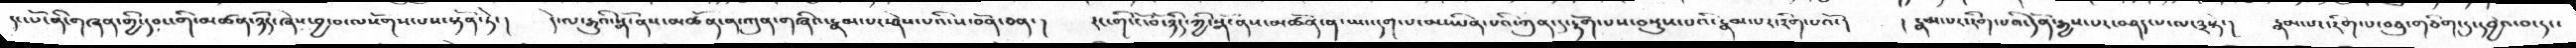དང་པོ་ནི་གཞན་གྱི་དབང་གི་མཚན་ཉིད་ཞེས་བྱ་བ་ལསོགས་པས་སྟོན་ཏེ་།     དེ་ལ་རྒྱུའི་སྒོ་ནས་མཚོན་ན་ཀུན་གཞིའ་རྣམ་པར་ཤེས་པའི་ས་བོན་ཅན་།      རང་གི་ངོ་བོ་ཉིད་ཀྱི་སྒོ་ནས་མཚོན་ན་ཡང་དག་པ་མ་ཡིན་པའི་ཀུན་དུ་རྟོག་པས་བསྡུས་པའི་རྣམ་པར་རིག་པའོ་།     ། རྣམ་པར་རིག་པའི་དོན་རྒྱས་པར་བཤད་པ་ལ་༣སྟེ་།     རྣམ་པར་རིག་པ་བཅུ་གཅིག་དུ་དབྱེའ་བ་དང་
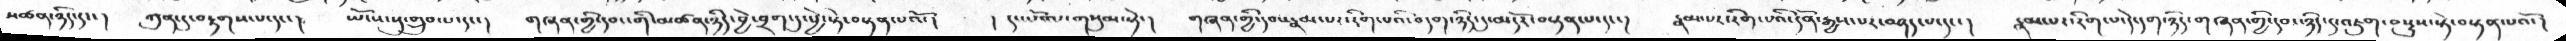མཚན་ཉིད་དང་།  ཀུན་དུ་བརྟགས་པ་དང་།  ཡོངས་སུ་གྲུབ་པ་དང་།  གཞན་གྱི་དབང་གི་མཚན་ཉིད་བྱེ་བྲག་དུ་ཕྱེ་སྟེ་བསྟན་པ༷འོ་།   ། དང་པོ་ལ་གསུམ་སྟེ་།  གཞན་གྱི་དབང་རྣམ་པར་རིག་པའི་བདག་ཉིད་དུ་མདོར་བསྟན་པ་དང་།  རྣམ་པར་རིག་པའི་དོན་རྒྱས་པར་བཤད་པ་དང་།  རྣམ་པར་རིག་པ་དེ་དག་ཉིད་གཞན་གྱི་དབང་ཉིད་དུ་འཇུག་བསྡུས་སྟེ་བསྟན་པའོ་།
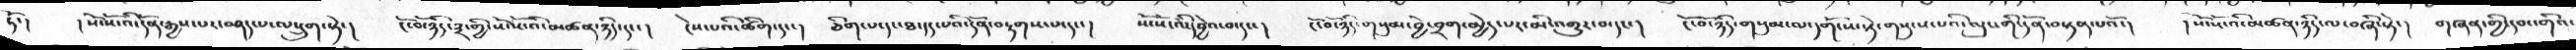ཏོ་།   ། སོ་སོ་འི་དོན་རྒྱས་པར་བཤད་པ་ལ་དྲུག་སྟེ་།  ངོ་བོ་ཉིད་༣་གྱི་སོ་སོ་འི་མཚན་ཉིད་དང་།  ངེས་པའི་ཚིག་དང་།  ཅིག་པ་དང་ཐ་དད་པའི་དོན་བརྟགས་པ་དང་།  སོ་སོ་འི་དབྱེའ་བ་དང་།  ངོ་བོ་ཉིད་གསུམ་བྱེ་བྲག་མྱེད་པར་མི་འགྱུར་བ་དང་།  ངོ་བོ་ཉིད་གསུམ་ལ་དགོངས་སྟེ་གསུངས་པའི་ལུང་གི་དོན་བསྟན་པའོ་།   ། སོ་སོ་འི་མཚན་ཉིད་ལ་བཞི་སྟེ་།  གཞན་གྱི་དབང་གིའ
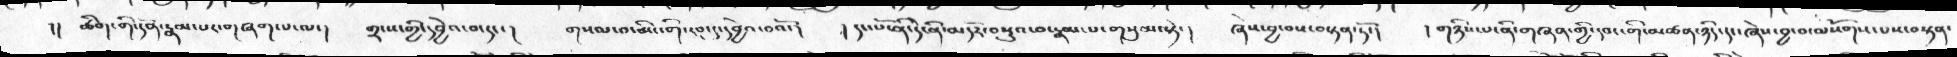།།  ཚིག་གི་དོན་རྣམ་པར་གཞག་པ་ལ་།  གྲངས་གྱི་དབྱེའ་བ་དང་།  གསལ་བ་མིང་གི་རབ་དུ་དབྱེའ་བའོ་།  ། དང་པོ་ནི་དེ་ནི་མདོར་བསྡུའ་བ་རྣམ་པ་གསུམ་སྟེ་།  ཞེས་བྱ་བས་བསྟན་ཏོ་།  །གཉིས་པ་ནི་གཞན་གྱི་དབང་གི་མཚན་ཉིད་དང་ཞེས་བྱ་བ་ལསོགས་པས་བསྟན་
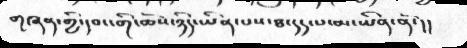གཞན་གྱི་དབང་གི་ཆོས་ཉིད་ཡིན་པས་ཐ་དད་པ་མ་ཡིན་ནོ་།།
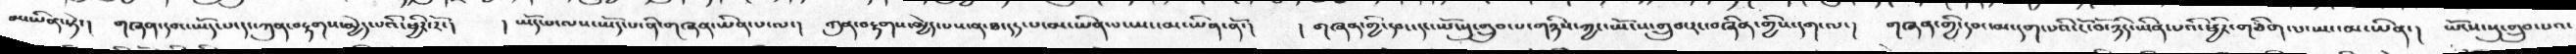མ་ཡིན་སྟེ་།  གཞན་དག་ཡོད་པ་དང་ཀུན་བརྟགས་མྱེད་པའི་ཕྱིར་རོ་།  ། ཡོད་པ་ལས་ཡོད་པ་ནི་གཞན་ཡིན་པ་ལ་།  ཀུན་བརྟགས་མྱེད་པས་ན་ཐ་དད་པ་མ་ཡིན་པ་ཡང་མ་ཡིན་ནོ་།  ། གཞན་གྱི་དབང་དབང་དང་ཡོངསུ་གྲུབ་པ་གཉིས་ཀྱང་ཡོངས་གྲུབ་རང་བཞིན་གྱིས་དག་ལ་།  གཞན་གྱི་དབང་མ་དག་པའི་ངོ་བོ་ཉིད་ཡིན་པའི་ཕྱིར་གཅིག་པ་ཡང་མ་ཡིན་།  ཡོངསུ་གྲུབ་པའ་
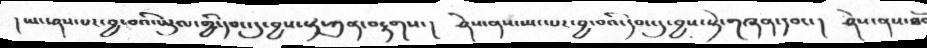། ཡང་ཤས་པར་བྱ་བའི་ཡུལ་གྱི་དབང་དུ་བྱས་སྟ་ཀུན་བརྟགས་།  ཤེས་ནས་སྤང་པར་བྱ་བའི་དབང་དུ་བྱས་སྟེ་གཞན་དབང་།  ཤེས་ནས་ཐོབ
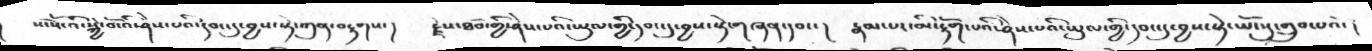སོ་སོ་འི་སྐྱེ་བོའི་ཤེས་པའི་དབང་དུ་བྱས་སྟེ་ཀུན་བརྟགས་།  རྗེས་ཐོབ་གྱི་ཤེས་པའི་ཡུལ་གྱི་དབང་དུ་བྱས་སྟེ་གཞན་དབང་།  རྣམ་པར་མི་རྟོག་པ༷འི་ཤེས་པའི་ཡུལ་གྱི་དབང་དུ་བྱས་སྟེ་ཡོངསུ་གྲུབ་པའོ་།
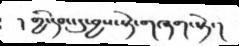། གྱི་དབང་དུ་བྱས་སྟེ་གཞག་སྟེ་།
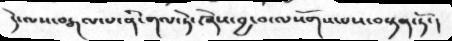དེ་ལས་བརྒལ་པ་ནི་གལ་ཏེ་ཞེས་བྱ་བ་ལསོགས་པས་བསྟན་ཏོ་།
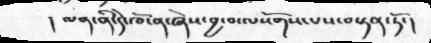།  ལན་ནི་དེ་ཁོ་ན་ཞེས་བྱ་བ་ལསོགས་པས་བསྟན་ཏོ་།
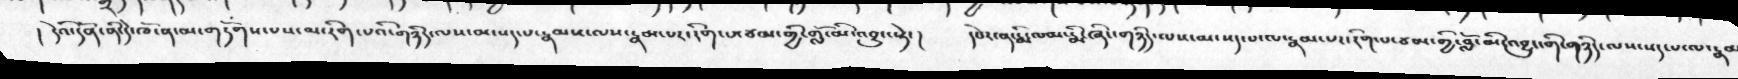། དེའི་དོན་ནི་དེ་ཁོ་ན་མ་གཏོགས་པས་མ་རིག་པའི་གཉིད་ལས་མ་སད་པ་རྣམས་ལས་རྣམ་པར་རིག་པ་ཙམ་གྱི་གློ་མི་འབྱུང་སྟེ་།    དཔེར་ན་རྨི་ལམ་རྨི་ཞིང་གཉིད་ལས་མ་སད་པ་ལ་རྣམ་པར་རིག་པ་ཙམ་གྱི་བློ་མི་འབྱུང་གི་གཉིད་ལས་སད་པ་ལ་རྣམ
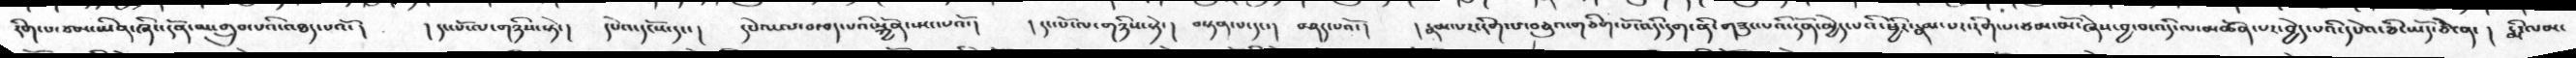རིིག་པ་ཙམ་ཡིན་ཞིང་དོན་མ་གྲུབ་པའི་འཐད་པའོ་།    ། དང་པོ་ལ་གཉིས་སྟེ་།    དཔེའ་དངོས་དང་།    དཔེའ་ལ་བརྩད་པའི་སྐྱོན་སྤང་པའོ་།    ། དང་པོ་ལ་གཉིས་སྟེ་།   བསྟན་པ་དང་།   བཤད་པའོ་།     ། རྣམ་པར་རིག་པ་བཅུ་གཅིག་པོ་འདི་དག་ནི་གཟུང་པའི་དོན་མྱེད་པའི་ཕྱིར་རྣམ་པར་རིག་པ་ཙམ་མོ་ཞེས་བྱ་བ་འདི་ལ་མཚོན་པར་བྱེད་པའི་དཔེའ་ཅི་ཡོད་ཅེ་ན་།   རྨི་ལམ་
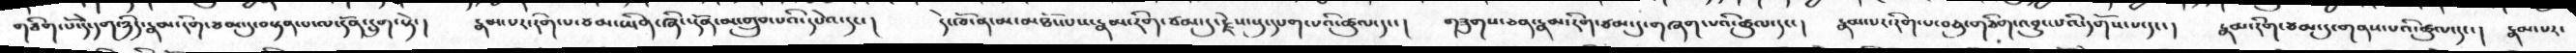གཅིག་པོ་དེ་དག་ཉིད་རྣམ་རིག་ཙམ་དུ་བསྟན་པ་ལ་དོན་དྲུག་སྟེ་།   རྣམ་པར་རིག་པ་ཙམ་ཡིན་ཞིང་དོན་མ་གྲུབ་པའི་དཔེའ་དང་།  དེ་ཁོ་ན་མ་མཐོང་པས་རྣམ་རིག་ཙམ་དུ་རྗེས་སུ་དཔག་པའི་ཚུལ་དང་།  གཟུགས་ཅན་རྣམ་རིག་ཙམ་དུ་གཞག་པའི་ཚུལ་དང་།  རྣམ་པར་རིག་པ་བཅུ་གཅིག་འབྱུང་པའི་དགོས་པ་དང་།  རྣམ་རིག་ཙམ་དུ་གནས་པའི་ཚུལ་དང་།  རྣམ་པར་
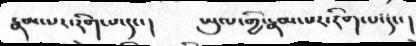རྣམ་པར་རིག་པ་དང་།  ཡུལ་གྱི་རྣམ་པར་རིག་པ་དང་།
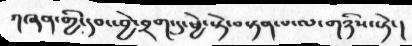གཞན་གྱི་དབང་བྱེ་བྲག་དུ་ཕྱེ་སྟེ་བསྟན་པ་ལ་གཉིས་སྟེ་།
